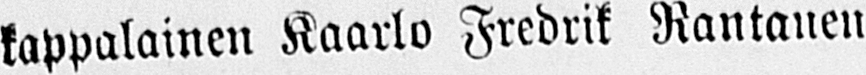kappalainen Kaarlo Fredrik Rantanen
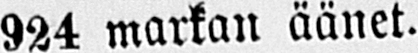924 markan äänet.
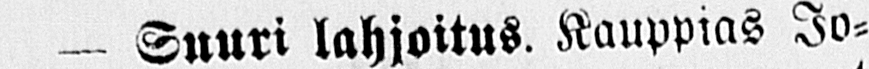- Suuri lahjoitus. Kauppias Jo-
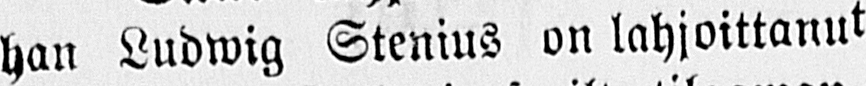han Ludwig Stenius on lahjoittanut
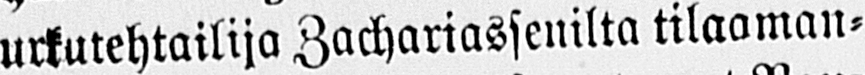urkutehtailija Zachariassenilta tilaaman-
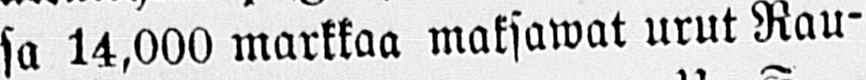sa 14,000 markkaa maksawat urut Rau-
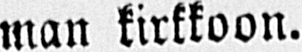man kirkkoon.
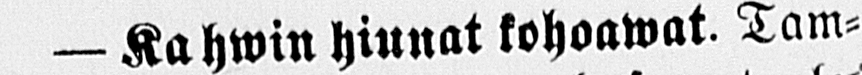- Kahwin hiunat kohoawat. Tam-
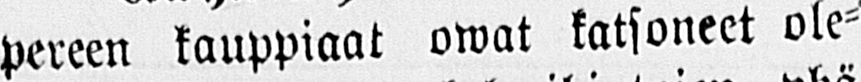pereen kauppiaat owat katsoneet ole-
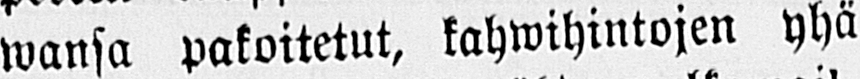wansa pakoitetut, kahwihintojen yhä
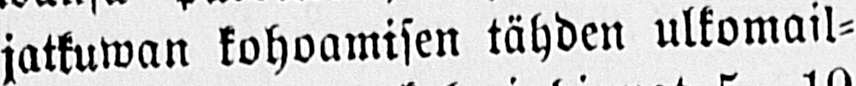jatkuwan kohoamisen tähden ulkomail-
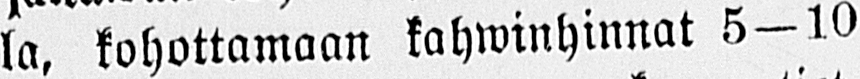la, kohottamaan kahwinhinnat 5-10
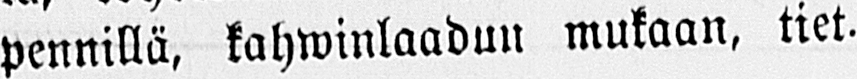pennillä, kahwinlaadun mukaan, tiet.
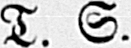T. S.
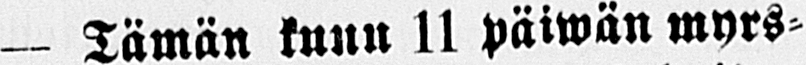- Tämän kunu 11 päiwän myrs-
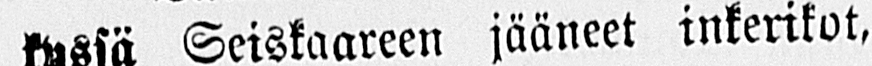kyssä Seiskaareen jääneet inkerikot,
